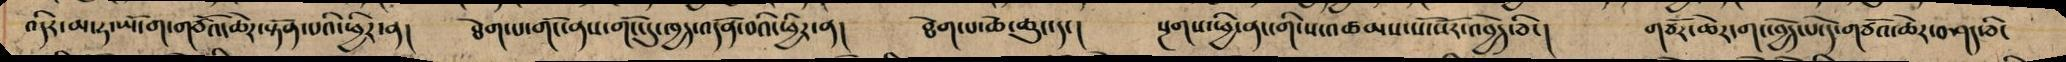འདིར་མ་ཧ་ཡོ་ག་གཙོའ་ཆེར་སྟོན་པའི་ཕྱིར་ན། ཐེག་པ་གོང་ནས་གོང་དུ་ཁྱད་འདོན་བའི་ཕྱིར་ན། ཐེག་པ་ཆེ་ཆུང་དང། སྔགས་ཕྱི་ནང་གི་ས་འཚམས་སོ་སོར་འབྱེད་ཅིང། གཙོར་ཆེར་གང་བྱེད་པ་དེ་གཙོའ་ཆེར་བཤད་ཅིང
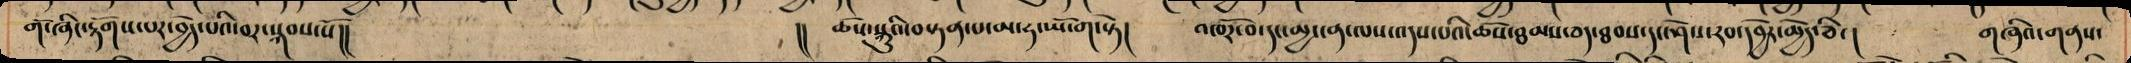གོ་ཞིང་རྟོགས་པར་བྱེད་པཔའི་བར་སྐབས་སོ།། །། ཆོས་སྐུའི་བསྟན་པ་མ་ཧ་ཡོ་ག་སྟེ། འཁོར་བ་དང་མྱ་ངན་ལས་འདས་པའི་ཆོས་ཐམས་ཅད་དང་ཤེས་རབ་དབྱེར་མྱེད་ཅིང། གཞིའ་གནས་
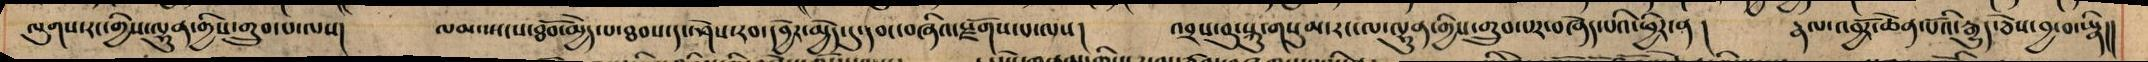ལུགས་རང་གྱིས་ལྷུན་གྱིས་གྲུབ་པ་ལས། ལམ་སྤངས་ཐོབ་མྱེད་པ་ཐབས་དང་ཤེས་རབ་དབྱེར་མྱེད་དུ་དབང་བཞིའ་སྫོགས་པ་ལས། འབྲས་བུ་སྐུ་གསུམ་རང་ལ་ལྷུན་གྱིས་གྲུབ་པར་བཞེད་པའི་ཕྱིར་ན། རྣལ་འབྱོར་ཆེན་པོའི་རྒྱུད་ཅེས་བྱ་བ་ཡི།།
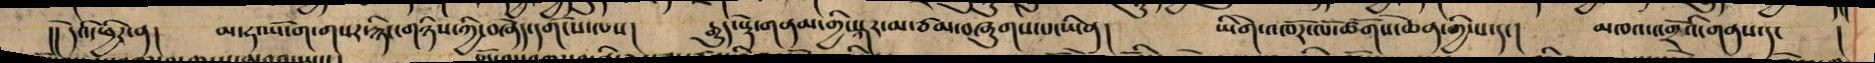།།དེའི་ཕྱིར་ན། མ་ཧ་ཡོ་ག་གསར་རྙིང་གཉིས་ཀྱི་བཞེད་དགོངས་ལས། རྒྱུད་སྡེ་གནམ་གྱི་སྐར་མ་ཙམ་བཞུགས་པ་ཡིན། ཡིགེ་འཁོར་ལོ་ཚོགས་ཆེན་གྱི་ས་དང། མཁའ་འགྲོའི་གནས་དང །
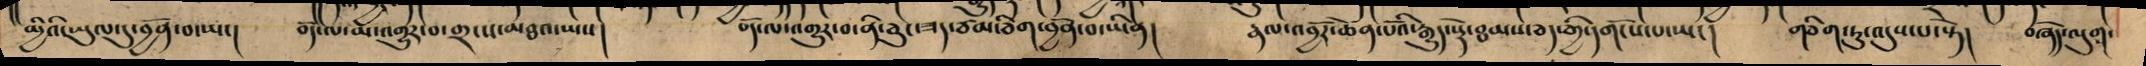མྱིའི་ཡུལ་དུ་བྱོན་བ་ཡང། བདེ་ལ་མ་འགྱུར་བ་གྲངས་མཐའ་ཡས། བོད་ལ་འགྱུར་བ་ནི་ཅུང་ཟད་ཙམ་ཅིག་བྱོན་བ་ཡིན། རྣལ་འབྱོར་ཆེན་པོའི་རྒྱུད་སྡེ་ཐམས་ཅད་གྱི་དགོངས་པ་ཡང། གཅིག་ཏུ་འདུས་པ་སྟེ། བཞེད་ལུག་
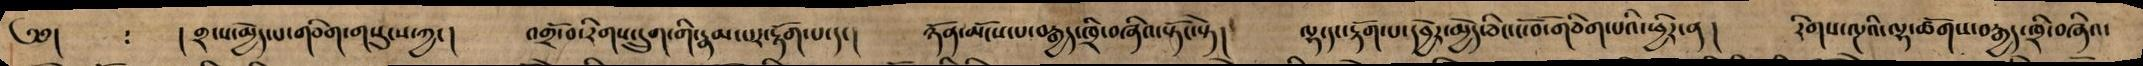༄༅། །གྲངས་མྱེད་པ་གཅིག་གསུངས་ཀྱང། འགྲོ་བ་རིགས་དྲུག་གི་རྣམ་པར་རྟོག་པ་དང། ཉོན་མོངས་པ་བརྒྱད་ཁྲི་བཞིའ་སྟོང་སྟེ། ལྷ་དང་རྟོག་པ་དབྱེར་མྱེད་ཅིང་ངོ་བོ་གཅིག་པའི་ཕྱིར་ན། རིགས་ལྔའི་ལྷ་ཚོགས་བརྒྱད་ཁྲི་བཞིའ་
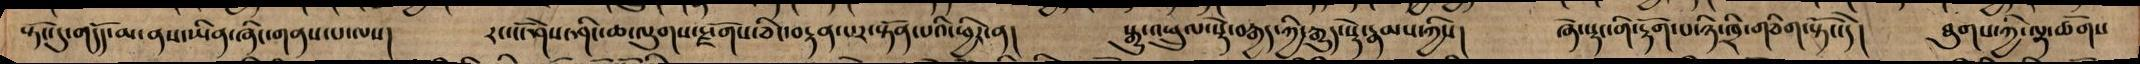སྟོང་དུ་གདོད་མ་ནས་ཡིན་ཞིང་གནས་པ་ལས། རང་ངོ་ཤེས་ཤིང་ཆ་ལུགས་སྫོགས་ཅིང་བརྟན་པར་སྟོན་པའི་ཕྱིར་ན། སྒྱུ་འཕྲུལ་སྡེ་བརྒྱད་ཀྱི་རྒྱུད་སྡེ་རྣམས་ཀྱིས། ཞེ་སྡང་གི་རྟོག་པ་ཉི་ཁྲི་གཅིག་སྟོང་དེ། ཐུགས་ཀྱི་ལྷ་ཚོགས
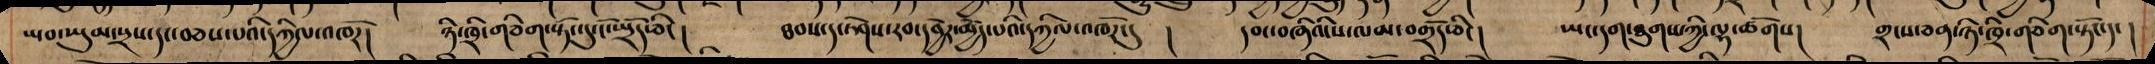ཡབ་ཡུམ་སྲས་དང་བཅས་པའི་དཀྱིལ་འཁོར། ཉི་ཁྲི་གཅིག་སྟོང་དུ་ངོ་སྤྲོད་ཅིང། ཐབས་དང་ཤཻས་རབ་དབྱེར་མྱེད་པའི་དཀྱིལ་འཁོར་དུ ། དབང་བཞིའི་ས་ལམ་བགྲོད་ཅིང། ཡང་དག་ཐུགས་ཀྱི་ལྷ་ཚོགས། གྲངས་ཅན་ཉི་ཁྲི་གཅིག་སྟོང་དང།
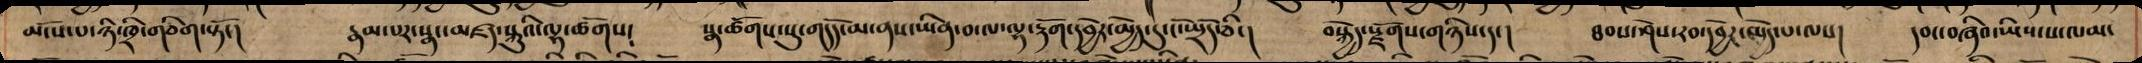མོགས་པ་ཉི་ཁྲི་གཅིག་སྟོང། རྣམ་པར་སྣང་མཛད་སྐུའི་ལྷ་ཚོགས། སྣ་ཚོགས་སུ་གདོད་མ་ནས་ཡིན་བ་ལ་ལྷ་རྟོག་དབྱེར་མྱེད་དུ་སྤྲོད་ཅིང། བསྐྱེད་སྫོགས་གཉིས་དང། ཐབས་ཤེས་རབ་དབྱེར་མྱེད་པ་ལས། དབང་བཞིའ་ཡིས་ས་ལམ་
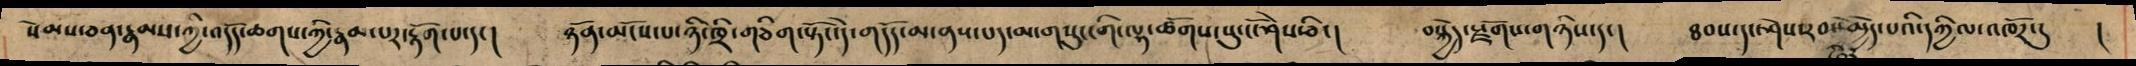སེམས་ཅན་རྣམས་ཀྱི་འདོད་ཆགས་ཀྱི་རྣམ་པར་རྟོག་པ་དང། ཉོན་མོངས་པ་ཉི་ཁྲི་གཅིག་སྟོང་དེ་གདོད་མ་ནས་པད་མ་གསུང་གི་ལྷ་ཚོགས་སུ་ངོ་ཤེས་ཅིང། བསྐྱེད་སྫོགས་གཉིས་དང། ཐབས་དང་ཤེས་རབ་མྱེད་པའི་དཀྱིལ་འཁོར་དུ །
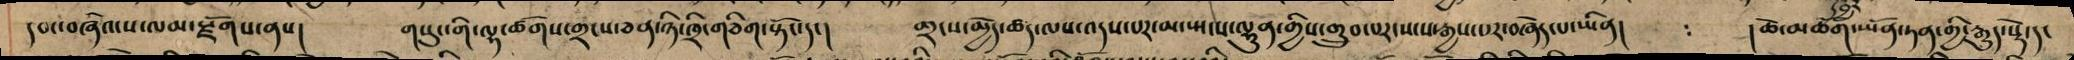དབང་བཞིའ་ས་ལམ་སྫོགས་ནས། གསུང་གི་ལྷ་ཚོགས་གྲངས་ཅན་ཉི་ཁྲི་གཅིག་སྟོང་དང། གྲངས་མྱེད་ཚད་ལས་འདས་པར་མ་སྤངས་ལྷུན་གྱིས་གྲུབ་པར་སངས་རྒྱས་པར་བཞེད་པ་ཡིན། །ཆེ་མཆོག་ཡོན་ཏན་གྱི་རྒྱུད་སྡེ་དང
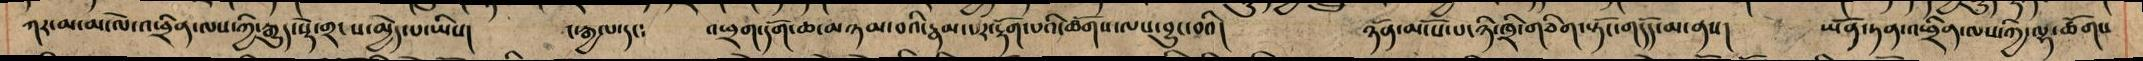ཀར་མ་མ་ལེ་འཕྲིན་ལས་ཀྱི་རྒྱུད་སྡེ་གྲངས་མྱེད་པ་ཡིས། ང་རྒྱལ་དང༴ འཕྲག་དོག་ཆ་མཉམ་བའི་རྣམ་པར་རྟོག་པའི་ཚོགས་ལས་བྱུང་བའི། ཉོན་མོངས་པ་ཉི་ཁྲི་གཅིག་སྟོང་གདོད་མ་ནས། ཡོན་ཏན་འཕྲིན་ལས་ཀྱི་ལྷ་ཚོགས
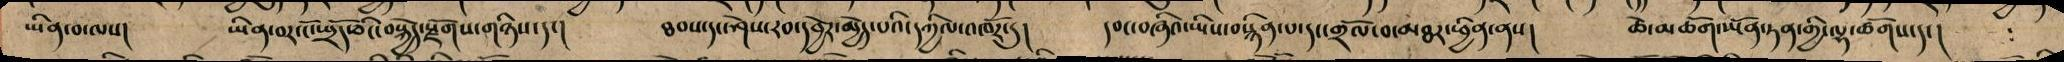ཡིན་བ་ལས། ཡིན་བར་ངོ་སྤྲོད་ཅིང་བསྐྱེད་སྫོགས་གཉིས་དང། ཐབས་དང་ཤེས་རབ་དབྱེར་མྱེད་པའི་དཀྱིལ་འཁོར་དུ། དབང་བཞིའ་ཡིས་བསྙིན་པ་དང་གྲོལ་བ་མཐར་ཕྱིན་ནས། ཆེ་མཆོག་ཡོན་ཏན་གྱི་ལྷ་ཚོགས་དང།
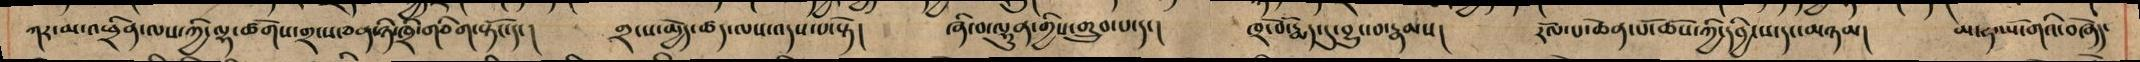ཀར་མ་འཕྲིན་ལས་ཀྱི་ལྷ་ཚོགས་གྲངས་ཅན་ཉི་ཁྲི་གཅིག་སྟོང་དང། གྲངས་མྱེད་ཚད་ལས་འདས་པ་སྟེ། ཞི་བ་ལྷུན་གྱིས་གྲུབ་པ་དང། ཁྲ་བོ་རྨད་དུ་བྱུང་བ་རྣམས། རོལ་པ་ཆེན་པོ་ཆོས་ཀྱི་དབྱིངས་དང་མཉམ། མ་ཧ་ཡོ་གའི་བཞེད་
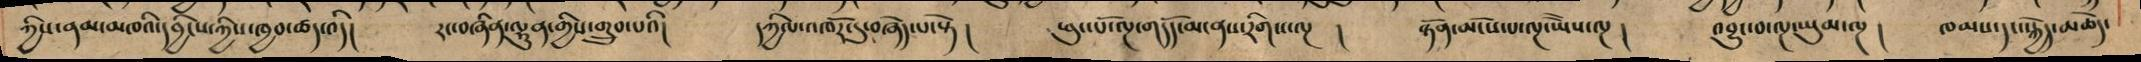ཀྱི་ནམ་མཁའི་དབྱིངས་ཀྱིས་ཁྱབ་ཚད་འདི། རང་བཞིན་ལྷུན་གྱིས་གྲུབ་པའི། དཀྱིལ་འཁོར་དུ་བཞེད་པ་སྟེ། ཕུང་པོ་ལྔ་གདོད་མ་ནས་རིགས་ལྔ ། ཉོན་མོངས་པ་ལྔ་ཡཻས་ལྔ། འབྱུང་བ་ལྔ་ཡུམ་ལྔ། ཁམས་དང་སྐྱེད་མཆེད་
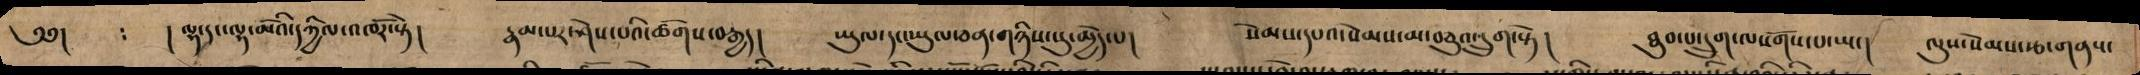༄༅། །ལྷ་དང་ལྷ་མོའི་དཀྱིལ་འཁོར་སྟེ། རྣམ་པར་ཤེས་པའི་ཚོགས་བརྒྱད། ཡུལ་དང་ཡུལ་ཅན་གཉིས་སུ་མྱེད་པ། སེམས་དཔའ་སེམས་མ་བཅུའ་དྲུག་སྟེ། ཐུབ་པ་དྲུག་སྟེ། ཐུབ་པ་དྲུག་ལསོགས་པ་ཡང། ལུས་སེམས་རྩ་གནས་
